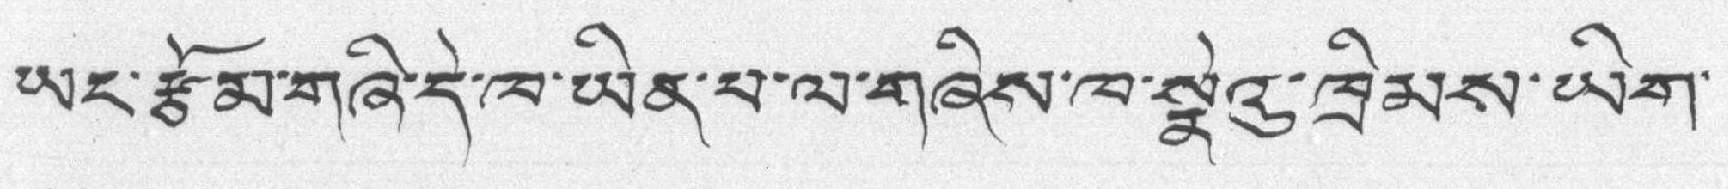ཡང་རྩོམ་གཞི་དེ་ལ་ཡིན་པ་ལ་གཞིས་ཁ་སྣེའུ་ཁྲིམས་ཡིག་
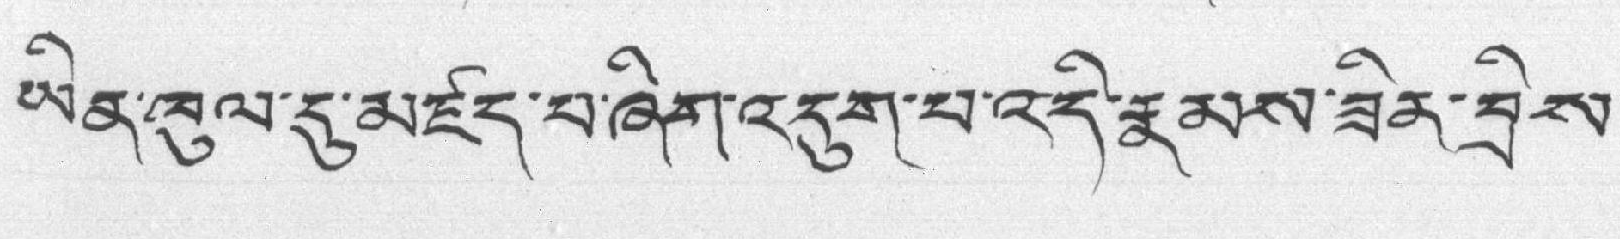ཡིན་ཁུལ་དུ་མཛད་པ་ཞིག་འདུག་པ་འདི་རྣམས་ཟིན་བྲིས་
